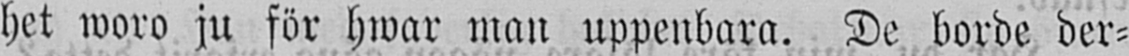het woro ju för hwar man uppenbara. De borde der-
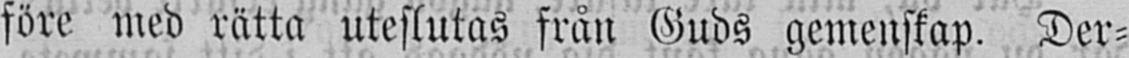före med rätta uteslutas från Guds gemenskap. Der-
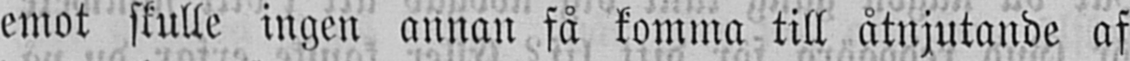emot skulle ingen annan få komma till åtnjutande af
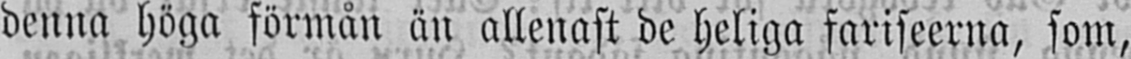denna höga förmån än allenast de heliga fariseerna, som,
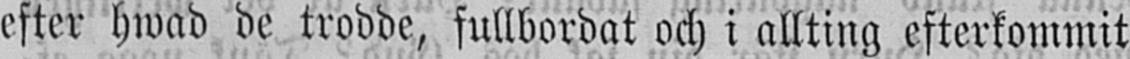efter hwad de trodde, fullbordat och i allting efterkommit
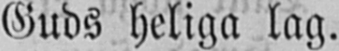Guds heliga lag.
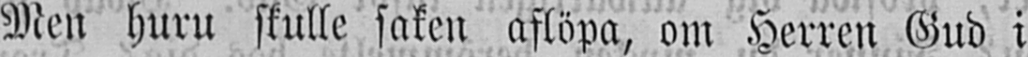Men huru skulle saken aflöpa, om Herren Gud i
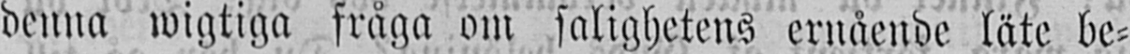denna wigtiga fråga om salighetens ernående läte be-
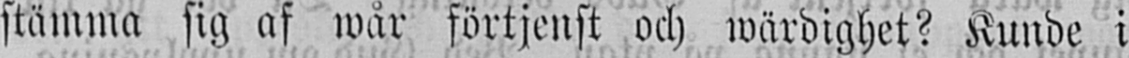stämma sig af wår förtjenst och wärdighet? Kunde i
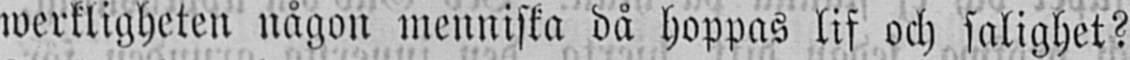werkligheten någon menniska då hoppas lif och salighet?
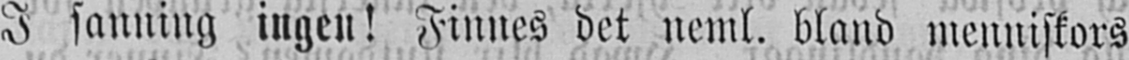I sanning ingen! Finnes det neml. bland menniskors
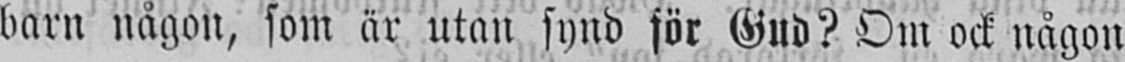barn någon, som är utan synd för Gud? Om ock någon
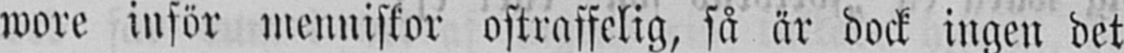wore inför menniskor ostraffelig, så är dock ingen det
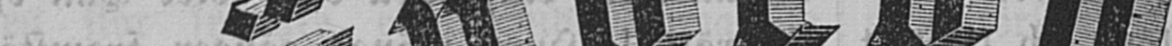Sändebudet.
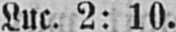Luc. 2: 10.
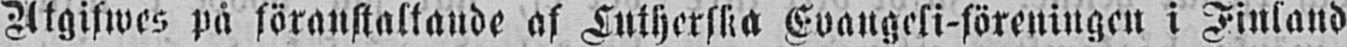Utgifwes på föranstaltande af Lutherska Evangeli-föreningen i Finland
